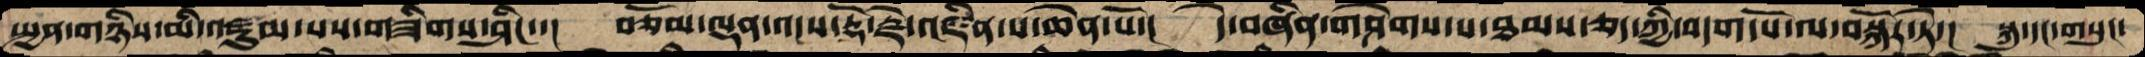སྤྱན་གཉིས་མི་འཛུམ་པས་གཟིགས་ཤིང་་།  བཅོམ་ལྡན་འདས་རྡོ་རྗེ་འཛིན་པ་ཆེན་པོ་།  དེ་བཞིན་གཤེགས་པ་ཐམས་ཅད་ཀྱི་བདག་པོ་ལ་བསྐོར་ཏེ་།  སྐུ་དང་གསུང་
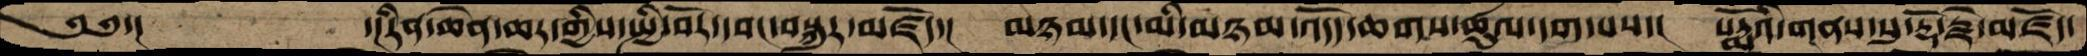༄༅་།           ་།རིན་ཆེན་ཆར་གྱིས་སྤྱི་བོར་དབང་བསྐུར་མཛོད་།  མཉམ་དང་མི་མཉམ་འདོད་ཆགས་ཚུལ་དག་པས་།  པཏྨོའི་གནས་སུ་རྡོ་རྗེ་མཛོད་
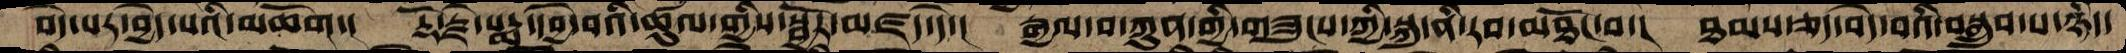བདེ་པར་བྱེད་པའི་མཆོག་།  རྡོ་རྗེ་པདྨ་དབྱེ་བའི་ཚུལ་གྱིས་སྦྱོར་མཛད་དེ་།  རྒྱལ་བ་ཀུན་གྱི་གཟུངས་ཀྱི་སྐུ་ནི་རབ་མཐོང་བ་།  ཐམས་ཅད་བདེ་བའི་བསྒྲུབ་པ་ཉིད་
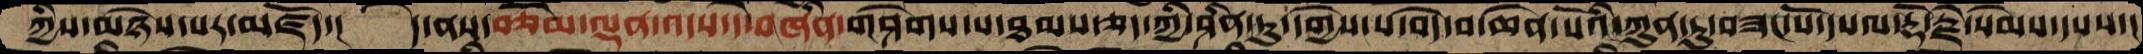ཀྱིས་མཉེས་པར་མཛོད་།  དེ་ནས་བཅོམ་ལྡན་འདས་དེ་བཞིན་གཤེགས་པ་ཐམས་ཅད་ཀྱི་ཤིན་ཏུ་དགྱེས་པ་བདེ་བ་ཆེན་པོའི་ཀུན་ཏུ་བཟང་པོ་དཔལ་རྡོ་རྗེ་སེམས་དསས་།
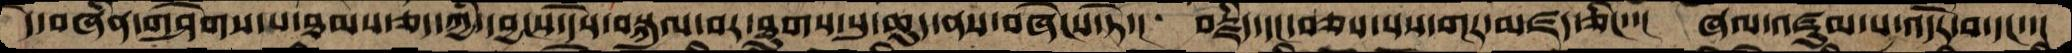དེ་བཞིན་གཤེགས་པ་ཐམས་ཅད་ཀྱི་དབྱངས་དེས་བསྐུལ་བར་ཐུགས་སུ་ཆུད་ནས་བཞེངས་ཏེ་།  བརྗིད་དང་བཅས་པས་གར་མཛད་ཅིང་་།  ཞལ་འཛུམ་པ་འདོར་བ་དང་་།
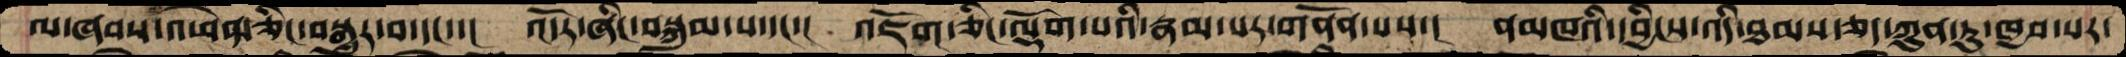ལ་ཞབས་འཕེན་ཅིང་བསྒྱུར་བ་དང་་།  འདོར་ཞིང་བསྐུམ་པ་དང་་།  འཇོག་ཅིང་ལྡོག་པའི་རྣམ་པར་གནོན་པས་།  ནམཁའི་དབྱིངས་འདི་ཐམས་ཅད་ཀུན་ཏུ་ཁྱབ་པར་
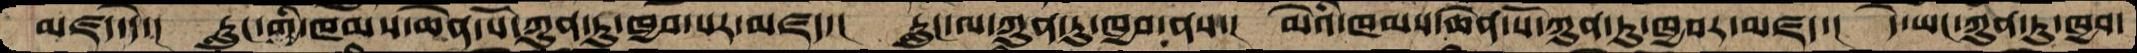མཛད་དེ་།  རླུང་གི་ཁམས་ཆེན་པོ་ཀུན་ཏུ་ཁྱབ་པར་མཛད་།  རླུང་ལ་ཀུན་ཏུ་ཁྱབ་ནས་།  མེའི་ཁམས་ཆེན་པོ་ཀུན་ཏུ་ཁྱབར་མཛད་།  དེ་ཡང་ཀུན་ཏུ་ཁྱབ་
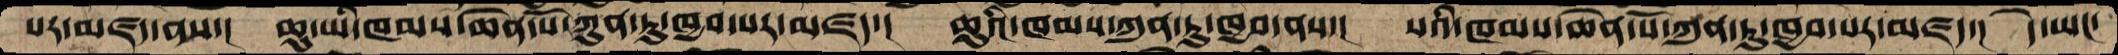པར་མཛད་ནས་།  ཆུ་ཡི་ཁམས་ཆེན་པོ་ཀུན་ཏུ་ཁྱབ་པར་མཛད་།  ཆུའི་ཁམས་ཀུན་ཏུ་ཁྱབ་ནས་།  སའི་ཁམས་ཆེན་པོ་ཀུན་ཏུ་ཁྱབ་པར་མཛད་།  དེ་ཡང་
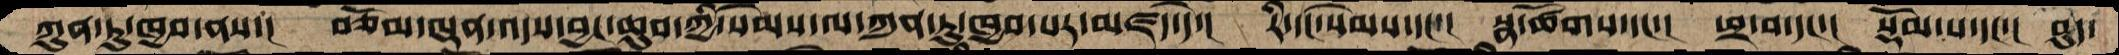ཀུན་ཏུ་ཁྱབ་ནས་།  བཅོམ་ལྡན་འདས་བྱང་ཆུབ་ཀྱི་སེམས་ལ་ཀུན་ཏུ་ཁྱབ་པར་མཛད་དེ་།  རི་དང་སེམས་དང་།  སྣ་ཚོགས་དང་།  ཕྲ་བ་དང་།  སྡོམ་པ་དང་།  བུད་
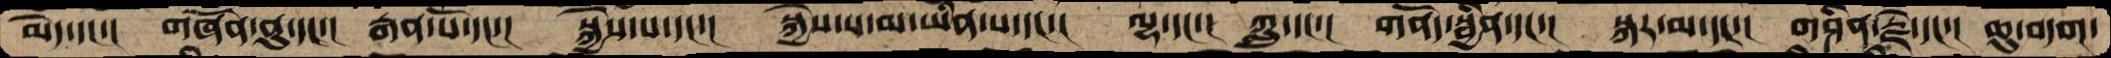མེད་དང་།  གཞོན་ནུ་དང་།  རྒན་པོ་དང་།  སྐྱེས་པ་དང་།  སྐྱེས་པ་མ་ཡིན་པ་དང་།  ལྷ་དང་།  ཀླུ་དང་།  གནོད་སྦྱིན་དང་།  སྐར་མ་དང་།  གཤིན་རྗེ་དང་།  ཆུ་བདག་
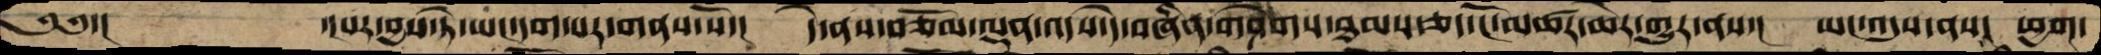༄༅་།      ་།པར་བྱས་ཏེ་ཡང་དག་པར་གནས་སོ་།  དེ་ནས་བཅོམ་ལྡན་འདས་དེ་བཞིན་གཤེགས་ཐམས་ཅད་ངོ་མཚར་ཆེར་གྱུར་ནས་།  ཡང་འདུས་ནས་།  ཕྱག་
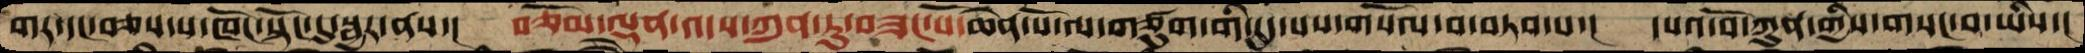གར་དང་བཅས་པ་ཁོང་སྟེང་དུ་སྦྱར་ནས་།  བཅོམ་ལྡན་འདས་ཀུན་ཏུ་བཟང་པོ་ཆེན་པོ་ལ་གཙུག་གི་དུད་པས་གསོལ་བ་བཏབ་པ་།  དཔའ་བོ་ཀུན་གྱིས་གསང་བ་ཡིས་།
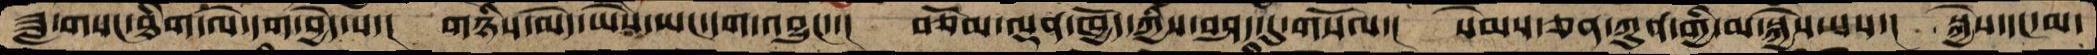ཟླ་གསང་ཐིག་ལེ་དག་བྱེད་པ་།  གཉིས་མེད་ཡཻས་ཡང་དག་འབྱུང་་།  བཅོམ་ལྡན་ཁྱོད་ཀྱིས་བཤད་དུ་གསོལ་།  སེམས་ཅན་ཀུན་གྱི་མ་སྐྱེས་པས་་  སྐྱེས་དང་མ་
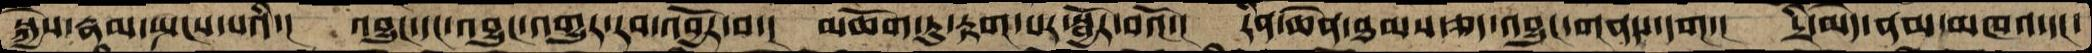སྐྱེས་རྣམ་སྤངས་པའི་།  འབྱུང་དང་འབྱུང་འགྱུར་རབ་འབྱོར་བ་།  མཆོག་ཏུ་རྟག་པར་སྦྱོར་བའོ་།  རིན་ཆེན་ཐམས་ཅད་འབྱུང་གནས་དག་།  དྲི་མེད་ནམ་མཁའ་དང་
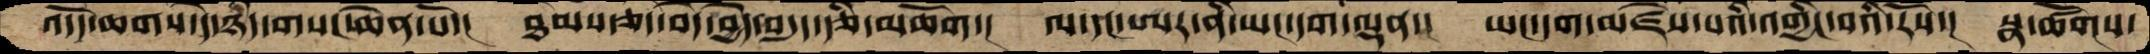འོདད་ཆགས་དེ་ཉིད་གསང་ཆེན་པོ་།  ཐམས་ཅད་བདེ་བྱེད་བདུད་རྩི་མཆོག་།  ལ་དང་ཨར་ནི་ཡང་དག་ལྡན་།  ཡང་དག་མཛེས་པའི་འགྱིང་བའི་རོས་།  སྣ་ཚོགས་
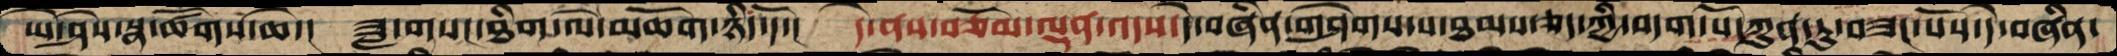ཡེ་ཤེས་སྣ་ཚོགས་ཆེ་།  ཟླ་གསང་ཐིག་ལེ་མཆོག་ཉིད་དོ་།   དེ་ནས་བཅོམ་ལྡན་འདས་དེ་བཞིན་གཤེགས་པ་ཐམས་ཅད་ཀྱི་བདག་པོ་ཀུན་ཏུ་བཟང་པོས་དེ་བཞིན་
